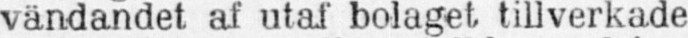vändandet af utaf bolaget tillverkade
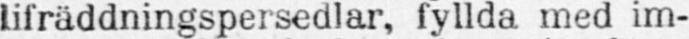lifräddningspersedlar, fyllda med im-
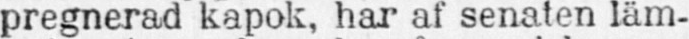pregnerad kapok, har af senaten läm-
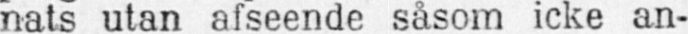nats utan afseende såsom icke an-
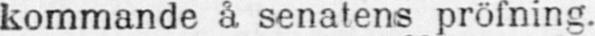kommande å senatens pröfning.
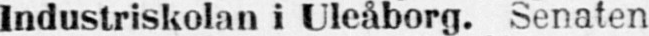Industriskolan i Uleåborg. Senaten
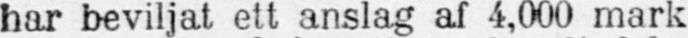har beviljat ett anslag af 4,000 mark
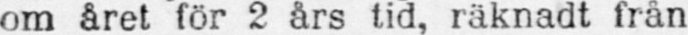om året för 2 års tid, räknadt från
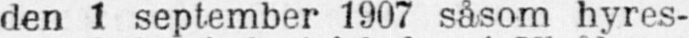den 1 september 1907 såsom hyres-
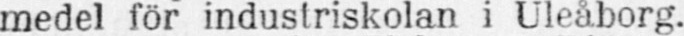medel för industriskolan i Uleåborg.
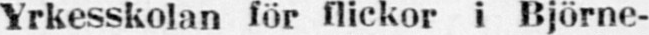Yrkesskolan för flickor i Björne-
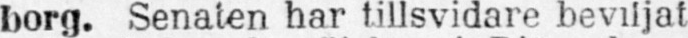borg. Senaten har tillsvidare beviljat
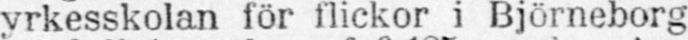yrkesskolan för flickor i Björneborg
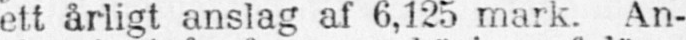ett årligt anslag af 6,125 mark. An-
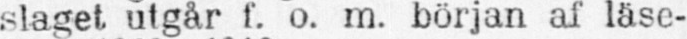slaget utgår f. o. m. början af läse-
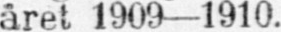året 1909—1910.
